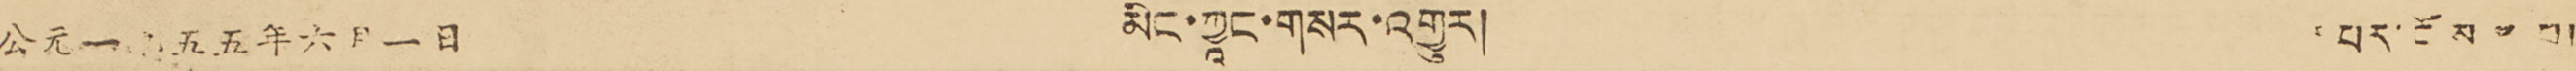公元一九五五年六月一日 མིང་ཀྱཱང་གསར་འགྱུར། དཔར་ངོས་ ༤ པ།
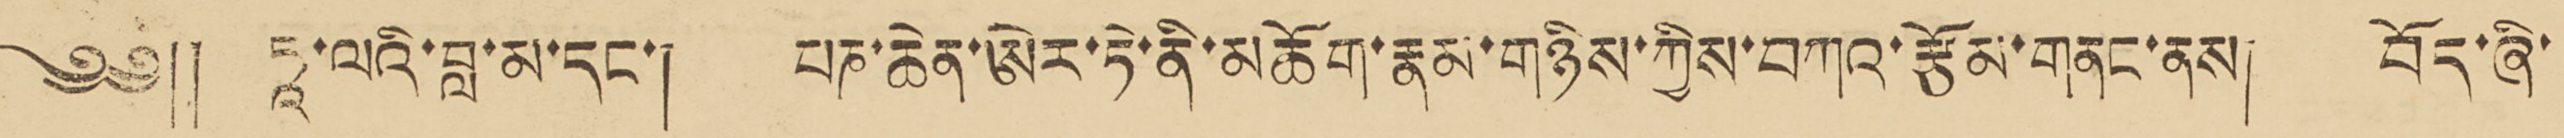༄༅༎ ཏཱ་ལའི་བླ་མ་དང་། པཎ་ཆེན་ཨེར་ཏེ་ནི་མཆོག་རྣམ་གཉིས་ཀྱིས་བཀའ་རྩོམ་གནང་ནས། བོད་ཞི་
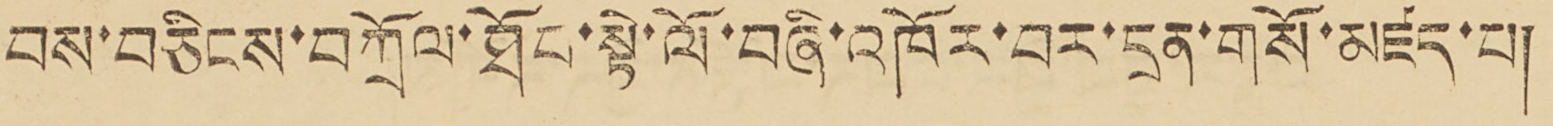བས་བཅིངས་བཀྲོལ་ཐོབ་སྟེ་ལོ་བཞི་འཁོར་བར་དྲན་གསོ་མཛད་པ།
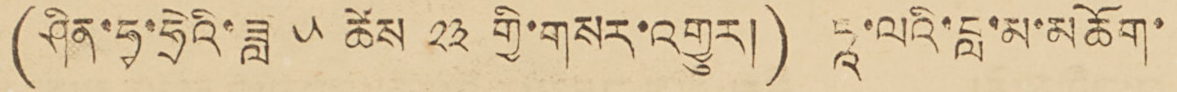(ཤིན་ཧྭ་ཧྲེའི་ཟླ ༥ ཚེས ༢༣ གྱི་གསར་འགྱུར།) ཏཱ་ལའི་བླ་མ་མཆོག་
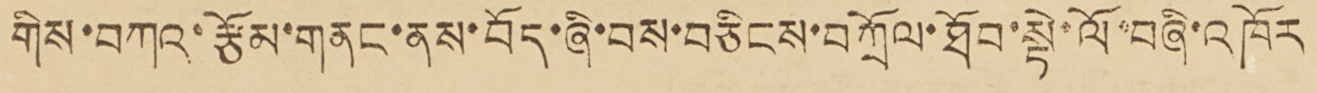གིས་བཀའ་རྩོམ་གནང་ནས་བོད་ཞི་བས་བཅིངས་བཀྲོལ་ཐོབ་སྟེ་ལོ་བཞི་འཁོར
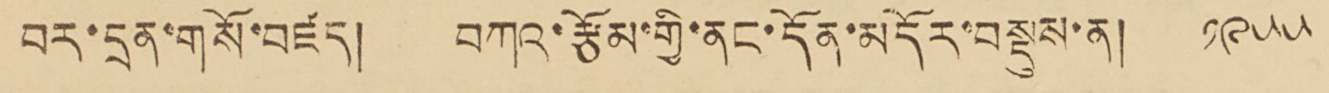བར་དྲན་གསོ་བཛད། བཀའ་རྩོམ་གྱི་ནང་དོན་མདོར་བསྡུས་ན། ༡༩༥༥
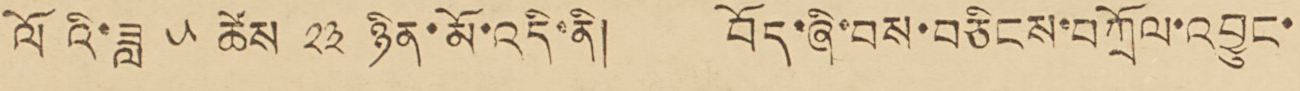ལོའི་ཟླ ༥ ཚེས ༢༣ ཉིན་མོ་འདི་ནི། བོད་ཞི་བས་བཅིངས་བཀྲོལ་འབྱུང་
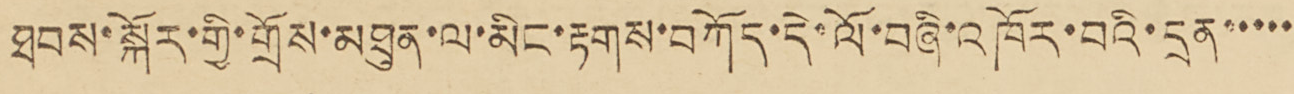ཐབས་སྐོར་གྱི་གྲོས་མཐུན་ལ་མིང་རྟགས་བཀོད་དེ་ལོ་བཞི་འཁོར་བའི་དྲན་་་་་
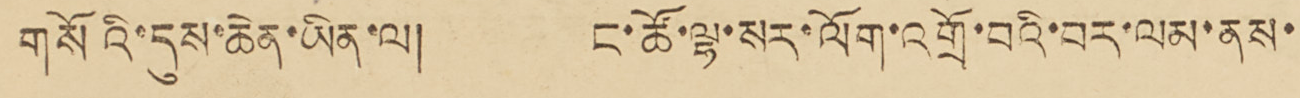གསོའི་དུས་ཆེན་ཡིན་ལ། ང་ཚོ་ལྷ་སར་ལོག་འགྲོ་བའི་བར་ལམ་ནས་
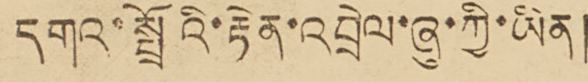དགའ་སྤྲོའི་རྟེན་འབྲེལ་ཞུ་ཀྱི་ཡིན།
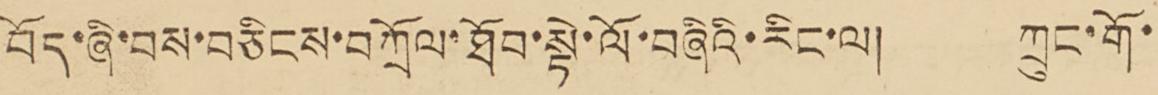བོད་ཞི་བས་བཅིངས་བཀྲོལ་ཐོབ་སྟེ་ལོ་བཞིའི་རིང་ལ། ཀྲུང་གོ་
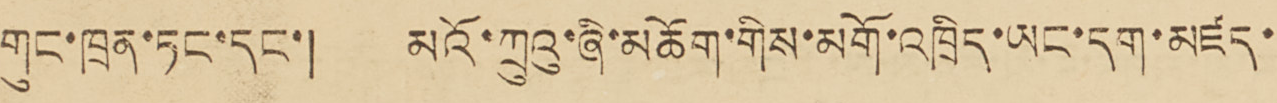གུང་ཁྲན་ཏང་དང་། མའོ་ཀྲུའུ་ཞི་མཆོག་གིས་མགོ་འཁྲིད་ཡང་དག་མཛད་
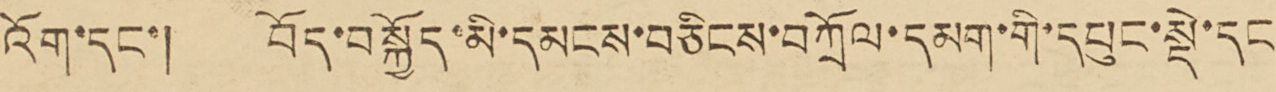འོག་དང་། བོད་བསྐྱོད་མི་དམངས་བཅིངས་བཀྲོལ་དམག་གི་དཔུང་སྡེ་དང
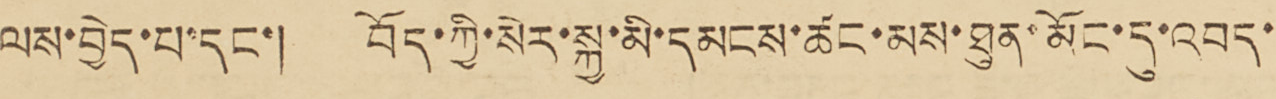ལས་བྱེད་པ་དང་། བོད་ཀྱི་སེར་སྐྱ་མི་དམངས་ཚང་མས་ཐུན་མོང་དུ་འབད་
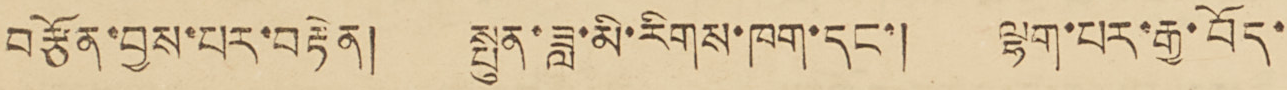བརྩོན་བྱས་པར་བརྟེན། སྤུན་ཟླ་མི་རིགས་ཁག་དང་། ལྷག་པར་རྒྱ་བོད་
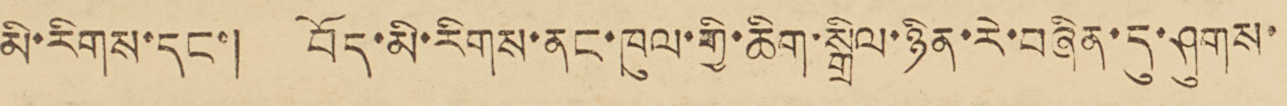མི་རིགས་དང་། བོད་མི་རིགས་ནང་ཁུལ་གྱི་ཆིག་སྒྲིལ་ཉིན་རེ་བཞིན་དུ་ཤུགས་
